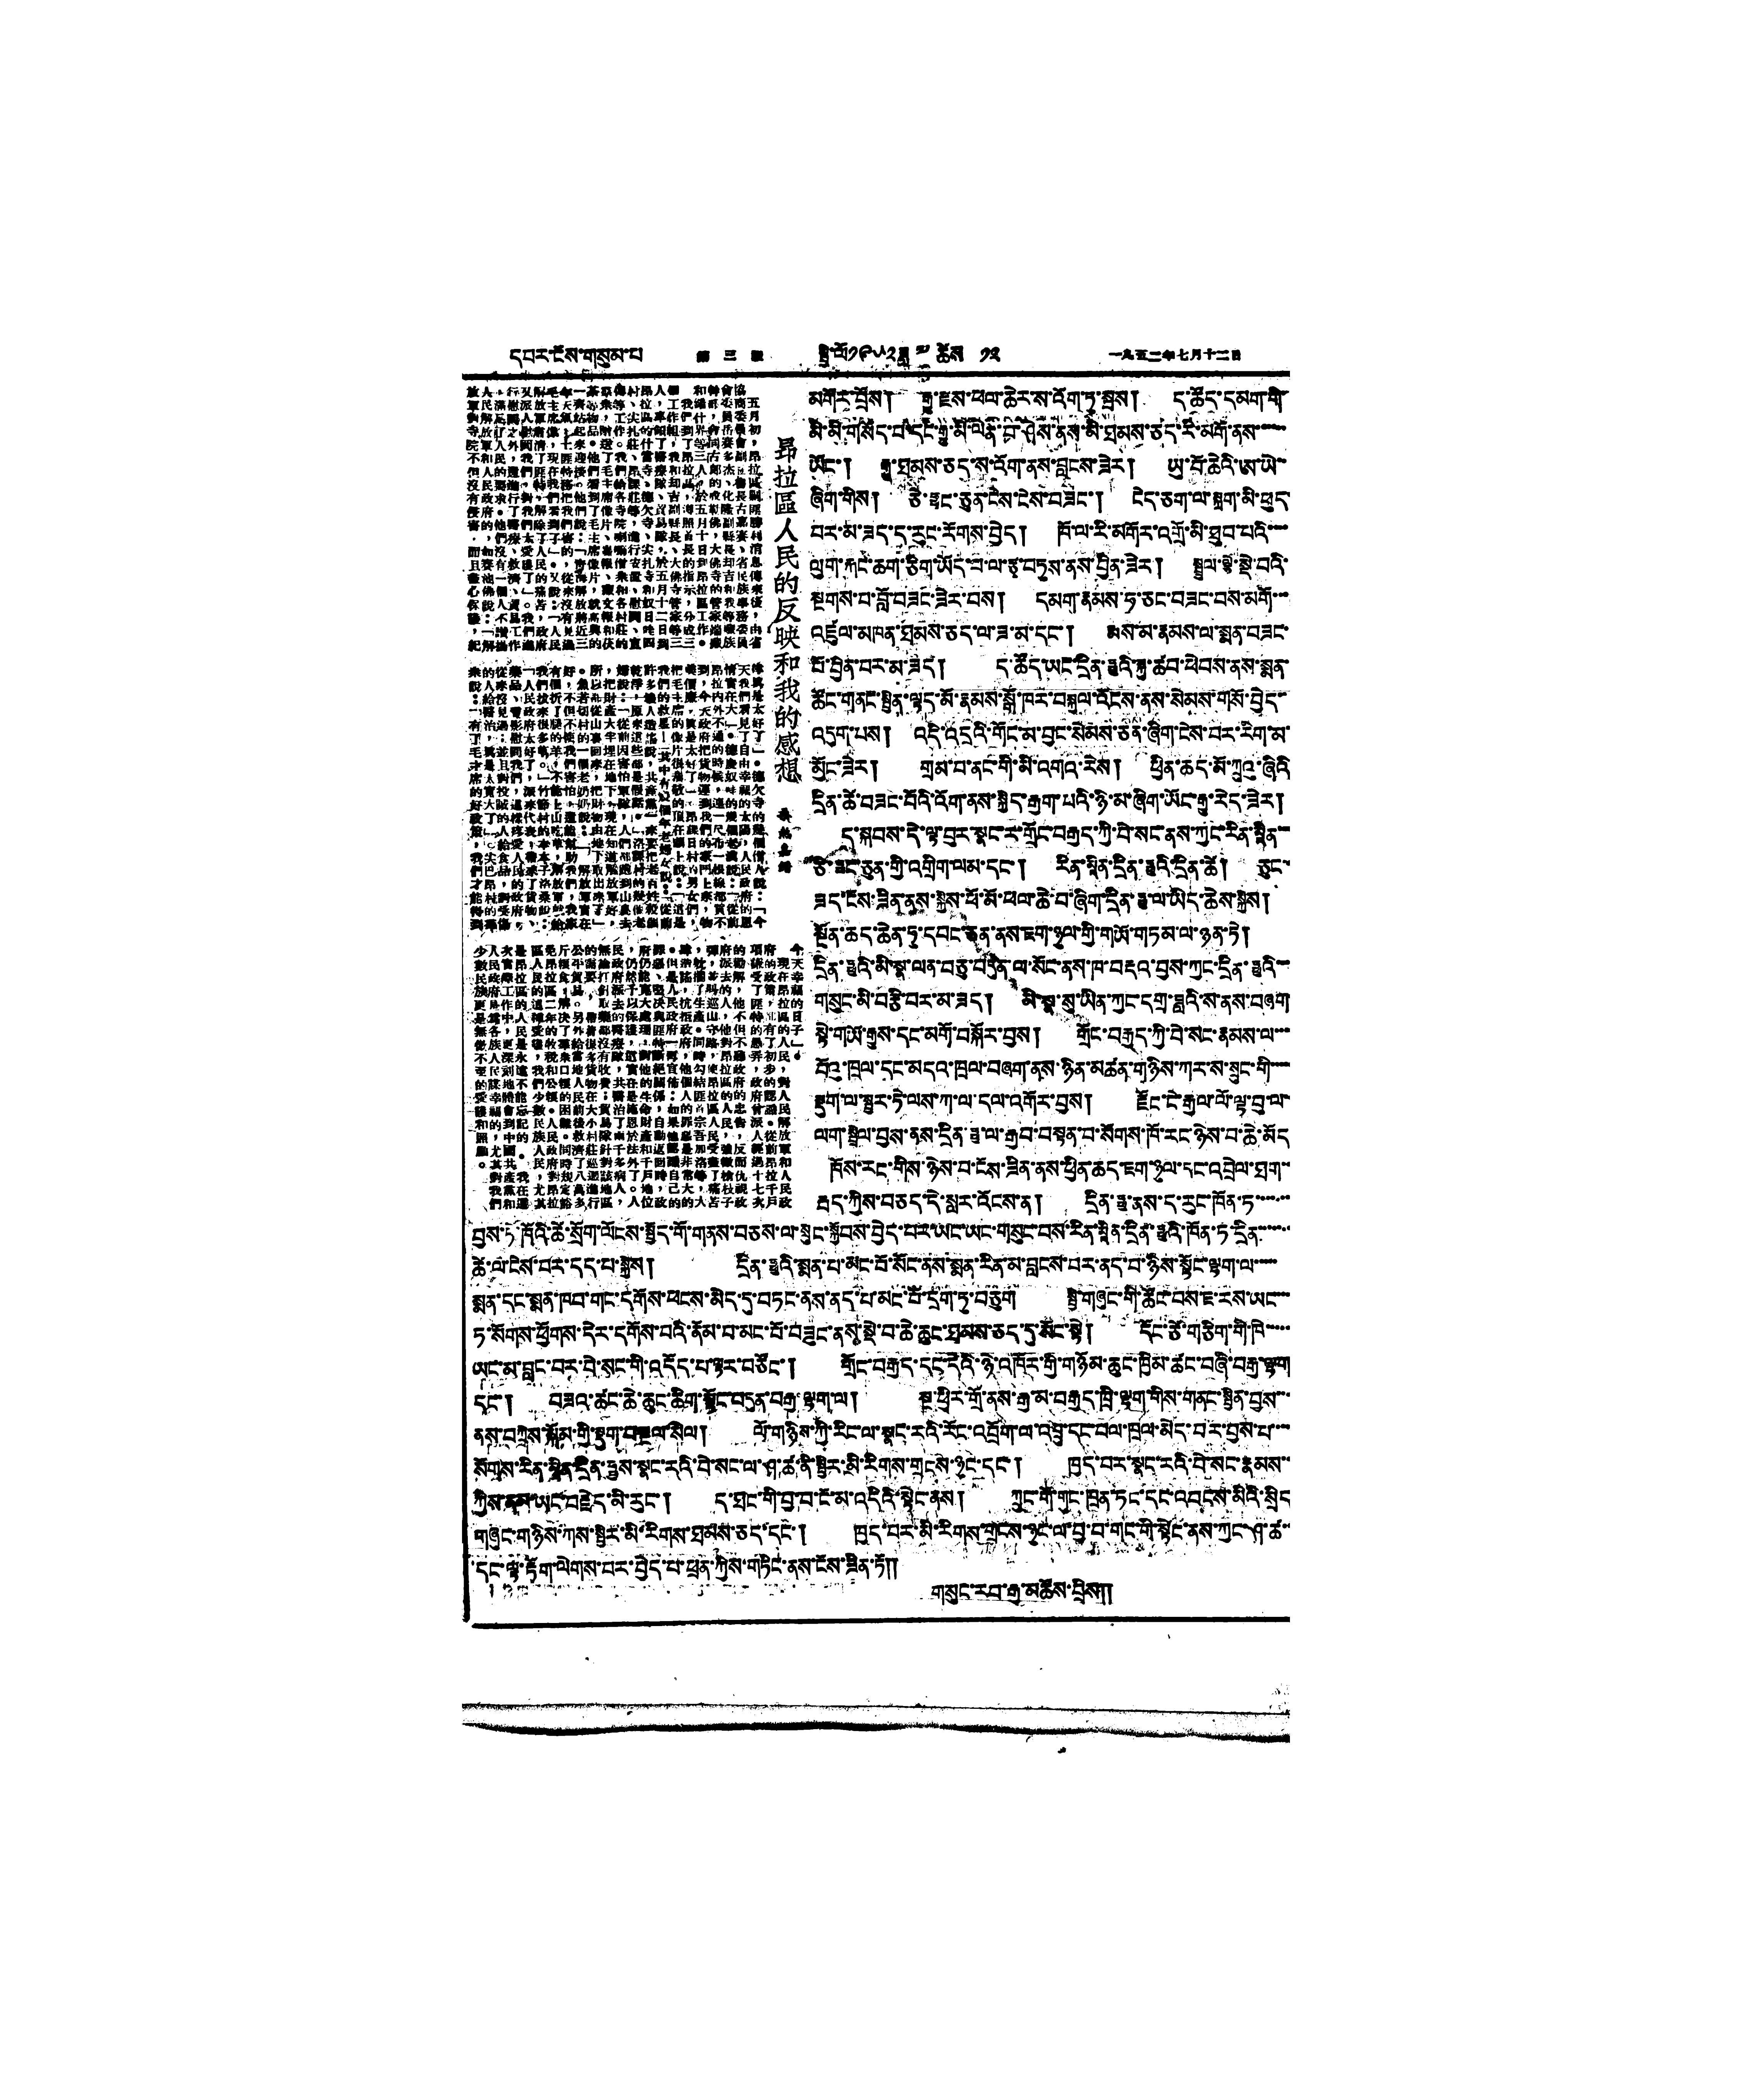དཔར་ངོས་གསུམ་པ 第三版 སྤྱི་ལོ༡༩༥༢ཟླ ༧ ཚེས ༡༢ 一九五二年七月十二日
昂拉區人民的反映和我的感想
桑熱嘉錯
五月初，昂拉區剿匪勝利消息傳來後，由省
協商委員會副祕書長古嘉賽、省民族事務委員
會委員岳賽多杰、化隆副縣長却吉和我等藏族
幹部，會同古郎的成勒佛，大佛寺的管家端藏
和錯什界等三人，於五月十日到昂拉區工作。
我們到了昂拉區，遵照首長的指示，分成三
個工作組，我和却吉副縣長、大佛寺管家等三
人，率領了醫療隊、貿易隊，於五月十二日到
昂拉區的什當寺、德欠寺、尖扎寺和奴日哇四
村、尖扎莊、昂課莊等，進行安置、慰問、宣
傳等工作。我們給各寺院喇嘛僧衆和各村莊的
羣衆，贈送了毛主席像片、畫報、藏文報和茯
茶等物品。他們看到了毛主席像片，就高興的
一齊站起來迎接。他們說：「靑海解放將近三
年天氣，土匪特務把我們害的，從來沒有見過
毛主席像，現在我們看到了」。又說：「人民
解放軍肅清了匪特，解除了人民的痛苦，政府
又派人慰問我們，對我們太愛護了」。我們進
行慰問之外，還進行了醫療、救濟、貿易工作
，滿足了人民的要求。他們沒有一個人不讚揚
人民解放軍和人民政府的，如賽池佛說：「解
放軍對寺院不但沒有侵害，而且盡心保護，紀
律眞是太好了」。德欠寺的幾個僧人說：「今
天我們看見了自由幸福的太陽，人民政府的恩
情實在大」。德慶奴哇的幾個老漢說：「從前
昂拉內外不通的時候，連一尺布一根線都買不
到，今天政府把貨物運到我們的家門上來，物
美價廉，眞是太好了」。昂課日村的男女們，
把毛主席的像片很恭敬的頂在頭上說：「這是
我們的救星！」其中有幾個年老婦女說：「從前
許多壞人造謠說，共產黨一來要把老百姓殺個
乾淨，原來這些都是假話。」洛課村的幾個老
婦說：「從前因害怕軍隊，人們都跑到山裏去
，把財產大半埋在地下，現在知道解放軍好，
所以都從山裏回來，把財物由地下取出來了」
。魚若切村的一個老奶奶說：「解放軍實在
好，不但不使我們害怕，還能幫助我們，我家
有個折了腿的羊，不能上山吃草，解放軍就給
我們拔來很多草。」竹節村的本本子洛桑說：
「人民政府太好了，派來代表，帶來了貨物、
藥品、電影慰問我們，這樣疼愛人民的政府，
從來沒見過；並且對投誠的人給食品，對受傷
的人給醫治，眞是太寬大了」。尖巴昂村的羣
衆說：「有了毛主席的好政策，我們才能得到
今天幸福的日子」。
現在昂拉區的人民，對人民解放軍和人民政
府的政策，都有了初步的認識。從前昂拉千戶
項謙受了匪特的愚弄，政府曾派人經過十七次
的勸解，他不但不聽政府的忠告，反而仇視政
府派去的人，他對昂拉區的人民，強徵槍支子
彈，並叫巡山守路，使昂拉區人民受盡了痛苦
，躭擱了生產。同時勾結匪首宗吾加洛等，大
肆造謠，抗拒政府，他個人的罪惡是非常大的
。但是人民政府一再宣佈：如果他認識自己的
罪惡、堅決與匪特斷絕關係，自動返回時，政
府仍能寬大處理，對他的生命財產和千戶地位
，仍然予以保護，這實在是施恩於法外了。人
民政府派去的醫療隊，共醫治了兩千多病人，
無論打針取藥都沒有收費；貿易隊針對該地區
的需要 ， 帶着很多貨物在大小村莊巡迴進行
公平貿易。另外給當地人民前後救濟了八萬多
斤粮食，解決了羣衆口粮的困難。同時規定豁
免昂拉區二年的牧稅和公粮。人民政府對昂拉
區人民的這種愛護，我們少數民族人民，尤其
是昂拉區的人民是永遠不能忘記的 。 我在這
次世紀工作中，更深刻地體會到中國共產黨和
人民政府是爲各族人民謀幸福的，尤其對我們
少數民族更是無微不至的愛護和照顧。
མགོར་བྲོས། རྒྱུ་རྫས་ཕབ་ཆེར་ས་འོག་ཏུ་སྦས། ད་ཚོད་དམག་གི་
མི་མི་གསོད་པ་དང་རྒྱུ་མི་ལེན་བ་ཤེས་ནས་མི་ཐམས་ཙད་རི་མགོ་ནས་་་་་
ཡོང་། རྒྱུ་ཐམས་ཅད་ས་འོག་ནས་བླངས་ཟེར། ཡུ་བོ་ཆེའི་ཨ་ཡེ་་
ཞིག་གིས། ཅི་ཧྥང་ཅུན་ངེས་ངེས་བཟང་། ངེད་ཅག་ལ་སྐྲག་མི་ཕུད་
བར་མ་ཟད་ད་རུང་རོགས་བྱེད། ཁོ་ལ་རི་མགོར་འགྲོ་མི་ཐུབ་པའི་་་་
ལུག་རྐང་ཆག་ཅིག་ཡོད་པ་ལ་རྩྭ་བཏུས་ནས་བྱིན་ཟེར། སྦྲུལ་ལྕེ་སྡེ་བའི་
སྔགས་པ་བློ་བཟང་ཟེར་བས། དམག་རྣམས་ཧ་ཅང་བཟང་བས་མགོ་་་
འཛུལ་མཁན་ཐམས་ཅད་ལ་ཟ་མ་དང་། རྨས་མ་རྣམས་ལ་སྨན་བཟང་
པོ་བྱིན་པར་མ་ཟད། ད་ཚོད་ཡང་དྲིན་ཧྥུའི་སྐུ་ཚབ་ཕེབས་ནས་སྨན་
ཚོང་གནང་སྦྱིན་ལྟད་མོ་རྣམས་སྒོ་ཁར་བསྐུལ་འོངས་ནས་སེམས་གསོ་བྱེད་་
འདུག་པས། འདི་འདྲའི་གོང་མ་བྱང་སེམས་ཅན་ཞིག་ངེས་པར་རིག་མ་
མྱོང་ཟེར། གྲམ་པ་ནང་གི་མི་འགའ་རེས། ཕྱིན་ཆད་མོ་ཀྲུའུ་ཞིའི
དྲིན་ཚེ་བཟང་བོའི་འོག་ནས་སྐྱིད་རྒྱག་པའི་ཉི་མ་ཞིག་ཡོང་རྒྱུ་རེད་ཟེར།
ད་སྐབས་དེ་ལྟ་བུར་སྣང་ར་གྲོང་བརྒྱད་ཀྱི་བེ་སང་ནས་ཀྱང་རིན་མཱིན་་
ཅི་ཧྥང་ཅུན་གྱི་འགྲིག་ལམ་དང་། རིན་མཱིན་དྲིན་ཧྥུའི་དྲིན་ཚེ། ཅུང་་
ཟད་ངོས་ཟིན་ནས་སྐྱེས་ཕོ་མོ་ཕལ་ཆེ་བ་ཞིག་དྲིན་ཧྥུ་ལ་ཡིད་ཆེས་སྐྱེས།
སྔོན་ཆད་ཆེན་ཏུ་དབང་ཅན་ནས་ཇག་ཉུལ་གྱི་གཡོ་གཏམ་ལ་ཉན་ཏེ།
དྲིན་ཧྥུའི་མི་སྣ་ལན་བཅུ་བདུན་ལ་སོང་ནས་ཁ་བརྡའ་བྱས་ཀྱང་དྲིན་ཧྥུའི་་
གསུང་མི་བརྩི་བར་མ་ཟད། མི་སྣ་སུ་ཡིན་ཀྱང་དགྲ་ཟླའི་ས་ནས་བཞག
སྟེ་གཡོ་རྒྱུས་དང་མགོ་བསྐོར་བྱས། གྲོང་བརྒྱད་ཀྱི་བེ་སང་རྣམས་ལ་་་
པོའུ་ཁྲལ་དང་མདའ་ཁྲལ་བཞག་ནས་ཉིན་མཚན་གཉིས་ཀར་ས་སྲུང་གི་་་་
སྡུག་ལ་སྦྱར་ཏེ་ལས་ཀ་ལ་དལ་འགོར་བྱས། རྫོང་ངེ་རྒྱལ་ལོ་ལྟ་བུ་ལ་
ལག་སྦྲིལ་བྱས་ནས་དྲིན་ཧྥུ་ལ་རྒྱབ་བསྟན་པ་སོགས་ཁོ་རང་ཉེས་བ་ཆེ་མོད
ཁོས་རང་གིས་ཉེས་བ་ངོས་ཟིན་ནས་ཕྱིན་ཆད་ཇག་ཉུལ་དང་འབྲེལ་ཐག་་
རྦད་ཀྱིས་བཅད་དེ་སླར་འོངས་ན། དྲིན་ཧྥུ་ནས་ད་རུང་ཁོན་ཏ་་་་་་་
བྱས་ཏེ་ཁོའི་ཚེ་སྲོག་ལོངས་སྤྱོད་གོ་གནས་བཅས་ལ་སྲུང་སྐྱོབས་བྱེད་པར་ཡང་ཡང་གསུང་པས་རིན་མཱིན་དྲིན་ཧྥུའི་ཁོན་ཏུ་དྲིན་་་་་་་
ཚེ་ལ་ངེས་བར་དད་པ་སྐྱེས། དྲིན་ཧྥུའི་སྨན་པ་མང་པོ་སོང་ནས་སྨན་རིན་མ་བླངས་བར་ནད་པ་ཉིས་སྟོང་ལྷག་ལ་་་་་
སྨན་དང་སྨན་ཁབ་གང་དགོས་ཕངས་མེད་དུ་བཏང་ནས་ནད་པ་མང་པོ་དྲག་ཏུ་བཅུག སྦྱི་གཞུང་གི་ཚོང་བས་ཇ་རས་ཡང་་་་
ཏ་སོགས་ཕྱོགས་དེར་དགོས་པའི་ནོམ་པ་མང་པོ་བཟུང་ནས་སྡེ་བ་ཆེ་ཆུང་ཐམས་ཅད་དུ་སོང་སྟེ། དོང་ཙེ་གཅིག་གི་ཁེ་་་་་་
ཡང་མ་བླང་བར་བེ་སང་གི་འདོད་པ་ལྟར་བཙོང་། གྲོང་བརྒྱད་དང་དེའི་ཉེ་འཁོར་གྱི་གཉོམ་ཆུང་ཁྱིམ་ཚང་བཞི་བརྒྱ་ལྷག
དང་། བཟའ་ཚང་ཆེ་ཆུང་ཆིག་སྟོང་བདུན་བརྒྱ་ལྷག་ལ། སྔ་ཕྱིར་གྲོ་ནས་རྒྱ་མ་བརྒྱད་ཁྲི་ལྷག་གིས་གནང་སྦྱིན་བྱས་་་
ནས་བཀྲེས་སྐོམ་གྱི་སྡུག་བསྔལ་སེལ། ལོ་གཉིས་ཀྱི་རིང་ལ་སྣང་རའི་རོང་འབྲོག་ལ་འབྲུ་དང་བལ་ཁྲལ་མེད་བར་བྱས་པ་་་་
སོགས་རིན་མཱིན་དྲིན་ཧྥུས་སྣང་རའི་བེ་སང་ལ་ཤ་ཚ་ནི་སྤྱིར་མི་རིགས་གྲངས་ཉུང་དང་། ཁྱད་བར་སྣང་རའི་བེ་སང་རྣམས་་
ཀྱིས་ནམ་ཡང་བརྗེད་མི་རུང་། ད་ཐང་གི་བྱ་བ་ངོ་མ་འདིའི་སྟེང་ནས། ཀྲུང་གོ་གུང་ཁྲན་ཏང་དང་འབངས་མིའི་སྲིད
གཞུང་གཉིས་ཀས་སྤྱིར་མི་རིགས་ཐམས་ཅད་དང་། ཁྱད་པར་མི་རིགས་གྲངས་ཉུང་ལ་བྱ་བ་གང་གི་སྟེང་ནས་ཀྱང་ཤ་ཚ་་
དང་ལྟ་རྟོག་ལེགས་པར་བྱེད་པ་ཕྲན་ཀྱིས་གཏིང་ནས་ངོས་ཟིན་ཏོ།།
གསུང་རབ་རྒྱ་མཚོས་བྲིས།།
